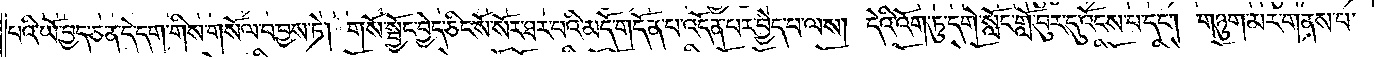པའི་ཡོ་བྱད་ཅན་དེ་དག་གིས་གསོལ་བ་བྱས་ཏེ། གསོ་སྦྱོང་བྱེད་ཅིང་སོ་སོར་ཐར་པའི་མདོ་གདོན་པ་འདོན་པར་བྱེད་པ་ལས། དེའི་འོག་ཏུ་དགེ་སློང་གློ་བུར་དུ་འོངས་པ་དང༌། གཉུག་མར་གནས་པ་
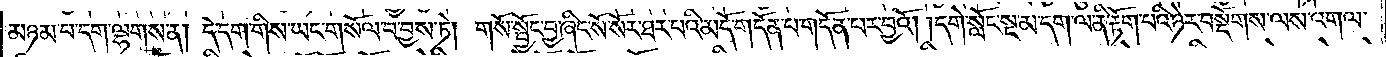མཉམ་པ་དག་ལྷགས་ན། དེ་དག་གིས་ཡང་གསོལ་བ་བྱས་ཏེ། གསོ་སྦྱོང་བྱ་ཞིང་སོ་སོར་ཐར་པའི་མདོ་གདོན་པ་གདོན་པར་བྱའོ། །དགེ་སློང་སྔ་མ་དག་ལ་ནི་རྟོག་པའི་ཉེར་བསྡོགས་ལས་འགལ་
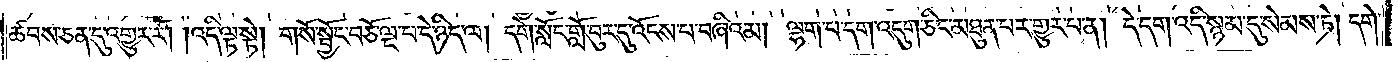ཚབས་ཅན་དུ་འགྱུར་རོ། །འདི་ལྟ་སྟེ། གསོ་སྦྱོང་བཅོ་ལྔ་པ་དེ་ཉིད་ལ། དགེ་སློང་གློ་བུར་དུ་འོངས་པ་བཞིའམ། ལྷག་པ་དག་འདུག་ཅིང་མཐུན་པར་གྱུར་པ་ན། དེ་དག་འདི་སྙམ་དུ་སེམས་ཏེ། དགེ་
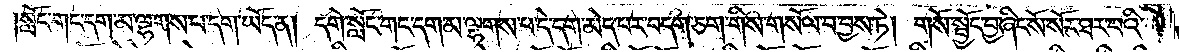སློང་གང་དག་མ་ལྷགས་པ་དག་ཡོད་ན། དགེ་སློང་གང་དག་མ་ལྷགས་པ་དེ་དག་མེད་པར་བདག་ཅག་གིས་གསོལ་བ་བྱས་ཏེ། གསོ་སྦྱོང་བྱ་ཞིང་སོ་སོར་ཐར་པའི་
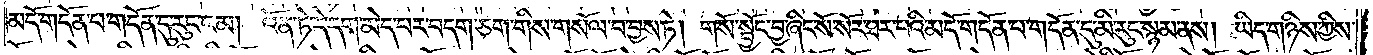མདོ་གདོན་པ་གདོན་དུ་རུང་ངམ། འོན་ཏེ་དེ་དག་མེད་པར་བདག་ཅག་གིས་གསོལ་བ་བྱས་ཏེ། གསོ་སྦྱོང་བྱ་ཞིང་སོ་སོར་ཐར་པའི་མདོ་གདོན་པ་གདོན་དུ་མི་རུང་སྙམ་ནས། ཡིད་གཉིས་ཀྱིས་
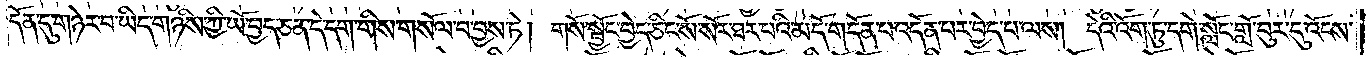དོན་དུ་གཉེར་བ་ཡིད་གཉིས་ཀྱི་ཡོ་བྱད་ཅན་དེ་དག་གིས་གསོལ་བ་བྱས་ཏེ། གསོ་སྦྱོང་བྱེད་ཅིང་སོ་སོར་ཐར་པའི་མདོ་གདོན་པ་འདོན་པར་བྱེད་པ་ལས། དེའི་འོག་ཏུ་དགེ་སློང་གློ་བུར་དུ་འོངས་
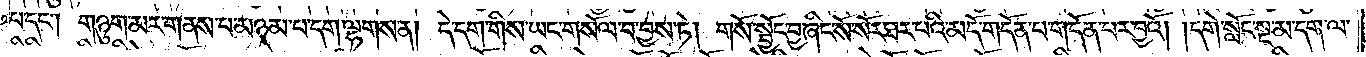པ་དང༌། གཉུག་མར་གནས་པ་མཉམ་པ་དག་ལྷགས་ན། དེ་དག་གིས་ཡང་གསོལ་བ་བྱས་ཏེ། གསོ་སྦྱོང་བྱ་ཞིང་སོ་སོར་ཐར་པའི་མདོ་གདོན་པ་གདོན་པར་བྱའོ། །དགེ་སློང་སྔ་མ་དག་ལ་
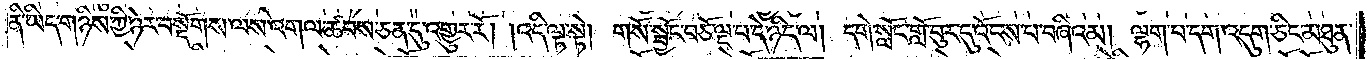ནི་ཡིད་གཉིས་ཀྱི་ཉེར་བསྡོགས་ལས་འགལ་ཚབས་ཅན་དུ་འགྱུར་རོ། །འདི་ལྟ་སྟེ། གསོ་སྦྱོང་བཅོ་ལྔ་པ་དེ་ཉིད་ལ། དགེ་སློང་གློ་བུར་དུ་འོངས་པ་བཞིའམ། ལྷག་པ་དག་འདུག་ཅིང་མཐུན་
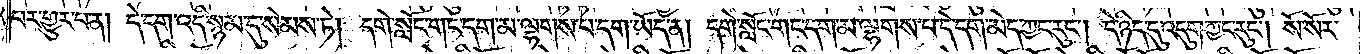པར་གྱུར་པ་ན། དེ་དག་འདི་སྙམ་དུ་སེམས་ཏེ། དགེ་སློང་གང་དག་མ་ལྷགས་པ་དག་ཡོད་ན། དགེ་སློང་གང་དག་མ་ལྷགས་པ་དེ་དག་མེད་ཀྱང་རུང༌། དེ་ཉིད་དུ་འདུག་ཀྱང་རུང༌། སོ་སོར་
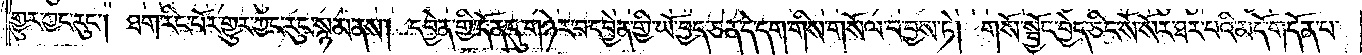གྱུར་ཀྱང་རུང༌། ཐག་རིང་པོར་གྱུར་ཀྱང་རུང་སྙམ་ནས། དབྱེན་གྱི་དོན་དུ་གཉེར་བ་དབྱེན་གྱི་ཡོ་བྱད་ཅན་དེ་དག་གིས་གསོལ་བ་བྱས་ཏེ། གསོ་སྦྱོང་བྱེད་ཅིང་སོ་སོར་ཐར་པའི་མདོ་གདོན་པ་
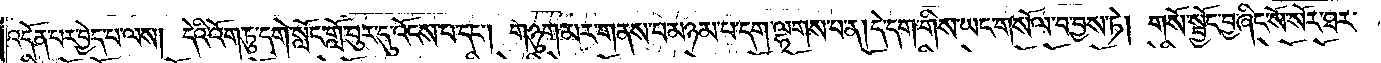འདོན་པར་བྱེད་པ་ལས། དེའི་འོག་ཏུ་དགེ་སློང་གློ་བུར་དུ་འོངས་པ་དང༌། གཉུག་མར་གནས་པ་མཉམ་པ་དག་ལྷགས་པ་ན། དེ་དག་གིས་ཡང་གསོལ་བ་བྱས་ཏེ། གསོ་སྦྱོང་བྱ་ཞིང་སོ་སོར་ཐར་
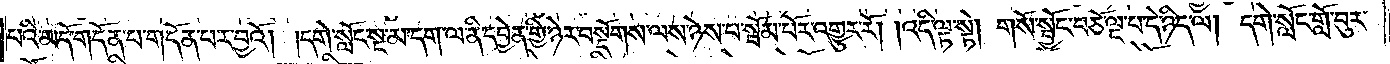པའི་མདོ་གདོན་པ་གདོན་པར་བྱའོ། །དགེ་སློང་སྔ་མ་དག་ལ་ནི་དབྱེན་གྱི་ཉེར་བསྡོགས་ལས་ཉེས་པ་སྦོམ་པོར་འགྱུར་རོ། །འདི་ལྟ་སྟེ། གསོ་སྦྱོང་བཅོ་ལྔ་པ་དེ་ཉིད་ལ། དགེ་སློང་གློ་བུར་
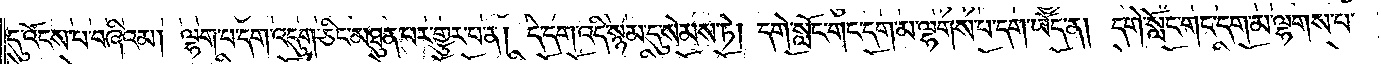དུ་འོངས་པ་བཞིའམ། ལྷག་པ་དག་འདུག་ཅིང་མཐུན་པར་གྱུར་པ་ན། དེ་དག་འདི་སྙམ་དུ་སེམས་ཏེ། དགེ་སློང་གང་དག་མ་ལྷགས་པ་དག་ཡོད་ན། དགེ་སློང་གང་དག་མ་ལྷགས་པ་
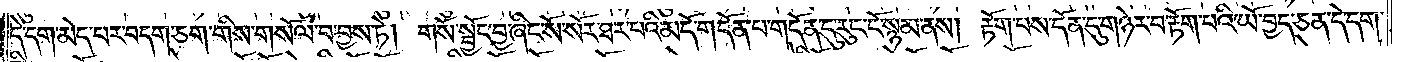དེ་དག་མེད་པར་བདག་ཅག་གིས་གསོལ་བ་བྱས་ཏེ། གསོ་སྦྱོང་བྱ་ཞིང་སོ་སོར་ཐར་པའི་མདོ་གདོན་པ་གདོན་དུ་རུང་ངོ་སྙམ་ནས། རྟོག་པས་དོན་དུ་གཉེར་བ་རྟོག་པའི་ཡོ་བྱད་ཅན་དེ་དག་
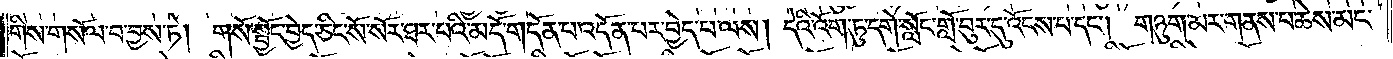གིས་གསོལ་བ་བྱས་ཏེ། གསོ་སྦྱོང་བྱེད་ཅིང་སོ་སོར་ཐར་པའི་མདོ་གདོན་པ་འདོན་པར་བྱེད་པ་ལས། དེའི་འོག་ཏུ་དགེ་སློང་གློ་བུར་དུ་འོངས་པ་དང༌། གཉུག་མར་གནས་པ་ཆེས་མང་
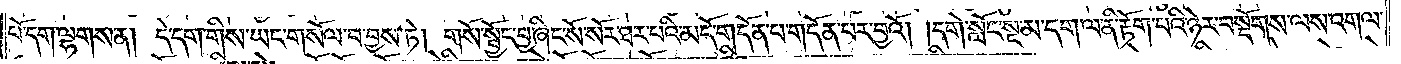པོ་དག་ལྷགས་ན། དེ་དག་གིས་ཡང་གསོལ་བ་བྱས་ཏེ། གསོ་སྦྱོང་བྱ་ཞིང་སོ་སོར་ཐར་པའི་མདོ་གདོན་པ་གདོན་པར་བྱའོ། །དགེ་སློང་སྔ་མ་དག་ལ་ནི་རྟོག་པའི་ཉེར་བསྡོགས་ལས་འགལ་
